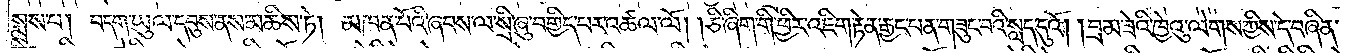སྨྲས་པ། བདག་ཡུལ་དབུས་ནས་མཆིས་ཏེ། མཁན་པོའི་ཞབས་ལ་སྲི་ཞུ་བགྱིད་པར་འཚལ་ལོ། །ཅི་ཞིག་གི་ཕྱིར་འཇིག་རྟེན་རྒྱང་པན་གཟུང་བའི་སླད་དུའོ། །བྲམ་ཟེའི་ཁྱེའུ་ལེགས་ཀྱིས་དེ་བཞིན་
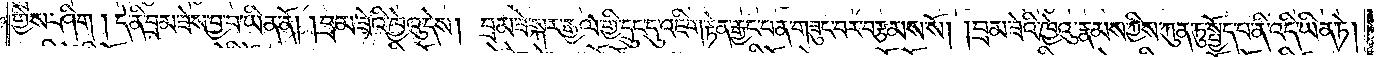གྱིས་ཤིག། དེ་ནི་བྲམ་ཟེས་བྱ་བ་ཡིན་ནོ། །བྲམ་ཟེའི་ཁྱེའུ་དེས། བྲམ་ཟེ་སྐར་རྒྱལ་གྱི་དྲུང་དུ་འཇིག་རྟེན་རྒྱང་པན་གཟུང་བར་བརྩམས་སོ། །བྲམ་ཟེའི་ཁྱེའུ་རྣམས་ཀྱིས་ཀུན་ཏུ་སྤྱོད་པ་ནི་འདི་ཡིན་ཏེ།
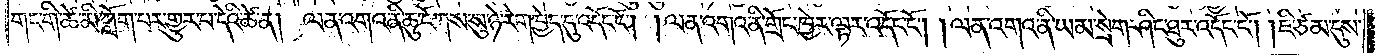གང་གི་ཚེ་མི་ཀློག་པར་གྱུར་པ་དེའི་ཚེ་ན། ལན་འགའ་ནི་ཆུ་ངོགས་སུ་ཉེ་རེག་བྱེད་དུ་འདོང་ངོ༌། །ལན་འགའ་ནི་གྲོང་ཁྱེར་ལྟར་འདོང་ངོ༌། །ལན་འགའ་ནི་ཡམ་སྲེག་ཤིང་ཐུར་འདོང་ངོ༌། །ཇི་ཙམ་དུས་
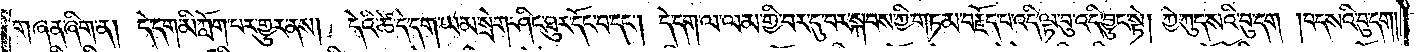གཞན་ཞིག་ན། དེ་དག་མི་ཀློག་པར་གྱུར་ནས། དེའི་ཚེ་དེ་དག་ཡམ་སྲེག་ཤིང་ཐུར་དོང་བ་དང༌། དེ་དག་ལ་ལམ་གྱི་བར་དུ་བར་སྐབས་ཀྱི་གཏམ་བརྗོད་པ་འདི་ལྟ་བུ་འདི་བྱུང་སྟེ། ཀྱེ་ཀུད་སའི་བུ་དག །བད་སའི་བུ་དག་
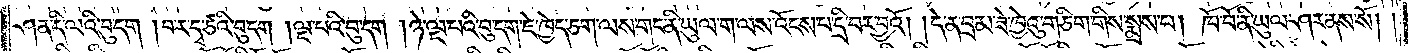ཤན་དི་ལའི་བུ་དག །བར་དྭ་ཙའི་བུ་དག །ལྔ་པའི་བུ་དག །ཉེ་ལྔ་པའི་བུ་དག་ཇེ་ཁྱེད་ཅག་ལས་གང་ནི་ཡུལ་ག་ལས་འོངས་པ་དྲི་བར་བྱའོ། །དེ་ན་བྲམ་ཟེ་ཁྱེའུ་གཅིག་གིས་སྨྲས་པ། ཁོ་བོ་ནི་ཡུལ་ཤར་ནས་སོ། །
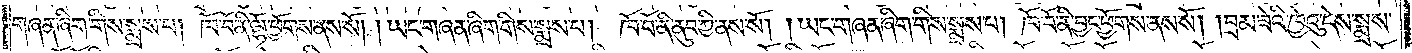གཞན་ཞིག་གིས་སྨྲས་པ། ཁོ་བོ་ནི་ལྷོ་ཕྱོགས་ནས་སོ། །ཡང་གཞན་ཞིག་གིས་སྨྲས་པ། ཁོ་བོ་ནི་ནུབ་ཀྱི་ནས་སོ། །ཡང་གཞན་ཞིག་གིས་སྨྲས་པ། ཁོ་བོ་ནི་བྱང་ཕྱོགས་ནས་སོ། །བྲམ་ཟེའི་ཁྱེའུ་དེས་སྨྲས་
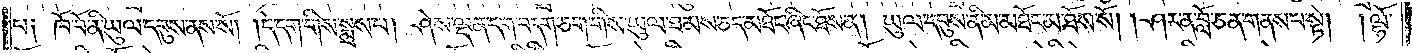པ༏ ཁོ་བོ་ནི་ཡུལ་དབུས་ནས་སོ། །དེ་དག་གིས་སྨྲས་པ། ཤེས་ལྡན་དག་བདག་ཅག་གིས་ཡུལ་ཐམས་ཅད་མཐོང་ཞིང་ཐོས་ན། ཡུལ་དབུས་ནི་མ་མཐོང་མ་ཐོས་སོ། །ཤར་ན་བློ་ཅན་གནས་པ་སྟེ། །ལྷོ་
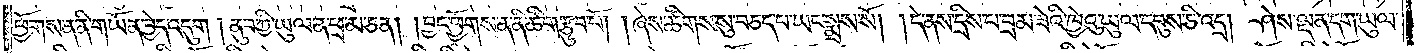ཕྱོགས་ན་ནི་གཡོན་བྱེད་འདུག། ནུབ་ཀྱི་ཡུལ་ན་ཕྲ་མ་ཅན། །བྱང་ཕྱོགས་ན་ནི་ཚིག་རྩུབ་པོ། །ཞེས་ཚིགས་སུ་བཅད་པ་ཡང་སྨྲས་སོ། །དེ་ནས་དྲིས་པ་བྲམ་ཟེའི་ཁྱེའུ་ཡུལ་དབུས་ཅི་འདྲ། ཤེས་ལྡན་དག་ཡུལ་
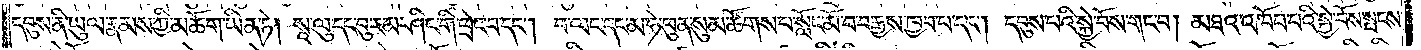དབུས་ནི་ཡུལ་རྣམས་ཀྱི་མཆོག་ཡིན་ཏེ། སཱ་ལུ་དང་བུ་རམ་ཤིང་གི་ཕྲེང་བ་དང༌། བ་ལང་དང་མ་ཧེ་ཕུན་སུམ་ཚོགས་པ་སློང་མོ་བ་བརྒྱས་ཁྱབ་པ་དང༌། དབུས་པའི་སྐྱེ་བོས་གང་བ། མཐའ་འཁོབ་པའི་སྐྱེ་བོས་སྤངས་
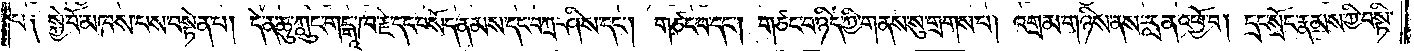པ༏ སྐྱེ་བོ་མཁས་པས་བསྟེན་པ། དེ་ན་ཆུ་ཀླུང་གངྒཱ་ཁ་རྗེ་དང་བསོད་ནམས་དང་བཀྲ་ཤིས་དང༌། གཙང་བ་དང༌། གཙང་བ་ཉིད་ཀྱི་གནས་སུ་གྲགས་པ། འགྲམ་གཉིས་ནས་རླན་འཕྱོ་བ། དྲང་སྲོང་རྣམས་ཀྱི་བསྟི་
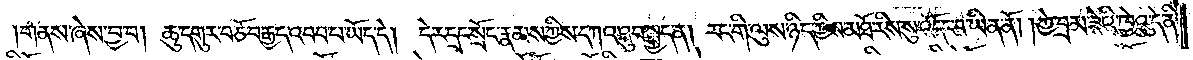གནས་ཞེས་བྱ་བ། ཆུ་དགུར་བཅོ་བརྒྱད་འབབ་པ་ཡོད་དེ། དེར་དྲང་སྲོང་རྣམས་ཀྱིས་དཀའ་ཐུབ་སྤྱད་ན། རང་གི་ལུས་ཉིད་ཀྱིས་མཐོ་རིས་སུ་འདོང་བ་ཡིན་ནོ། ། ཀྱེ་བྲམ་ཟེའི་ཁྱེའུ་དེ་ནི་
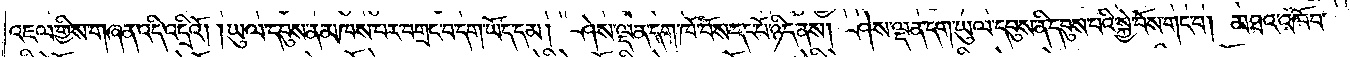འཇལ་གྱིས་གཞན་འདི་འདྲིའོ། །ཡུལ་དབུས་ན་མཁས་པར་བགྲང་བ་དག་ཡོད་དམ། ཤེས་ལྡན་དག་ཁོ་བོས་དང་པོ་ཉིད་ནས། ཤེས་ལྡན་དག་ཡུལ་དབུས་ནི་དབུས་བའི་སྐྱེ་བོས་གང་བ། མཐའ་འཁོབ་
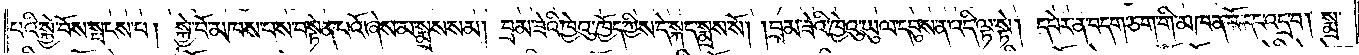པའི་སྐྱེ་བོས་སྤངས་པ། སྐྱེ་བོ་མཁས་པས་བསྟེན་པའོ་ཞེས་མ་སྨྲས་སམ། བྲམ་ཟེའི་ཁྱེའུ་ཁྱོད་ཀྱིས་དེ་སྐད་སྨྲས་སོ། །བྲམ་ཟེའི་ཁྱེའུ་ཡུལ་དབུས་ན་འདི་ལྟ་སྟེ། དཔེར་ན་བདག་ཅག་གི་མཁན་པོ་དང་འདྲ་བ། སྨྲ་
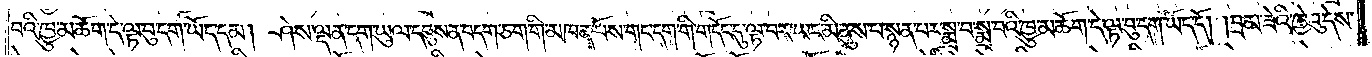བའི་ཁྱུ་མཆོག་དེ་ལྟ་བུ་དག་ཡོད་དམ། ཤེས་ལྡན་དག་ཡུལ་དབུས་ན་བདག་ཅག་གི་མཁན་པོས་གང་དག་གི་གདོང་དུ་ལྟ་བར་ཡང་མི་ནུས་པ་སྙན་པར་སྨྲ་བ་སྨྲ་བའི་ཁྱུ་མཆོག་དེ་ལྟ་བུ་དག་ཡོད་དོ། །བྲམ་ཟེའི་ཁྱེའུ་དེས་
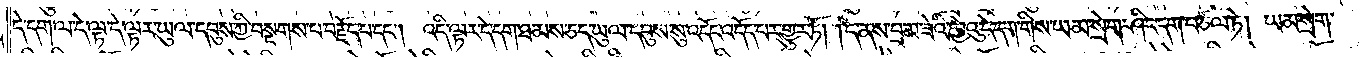དེ་དག་ལ་དེ་ལྟ་དེ་ལྟར་ཡུལ་དབུས་ཀྱི་བསྔགས་པ་བརྗོད་པ་དང༌། འདི་ལྟར་དེ་དག་ཐམས་ཅད་ཡུལ་དབུས་སུ་འདོང་འདོད་པར་གྱུར་ཏོ། །དེ་ནས་བྲམ་ཟེའི་ཁྱེའུ་དེ་དག་གིས་ཡམ་སྲེག་ཤིང་དག་བཙལ་ཏེ། ཡམ་སྲེག་
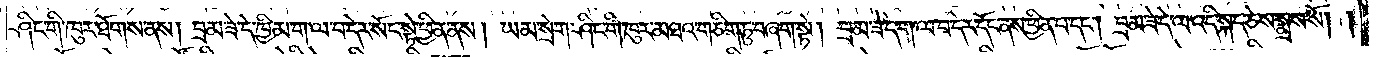ཤིང་གི་ཁུར་ཐོགས་ནས། བྲམ་ཟེ་དེ་ཁྱིམ་ག་ལ་བ་དེར་སོང་སྟེ་ཕྱིན་ནས། ཡམ་སྲེག་ཤིང་གི་ཁུར་མཐའ་གཅིག་ཏུ་བཞག་སྟེ། བྲམ་ཟེ་དེ་ག་ལ་བ་དེར་དོང་ནས་ཕྱིན་པ་དང༌། བྲམ་ཟེ་དེ་ལ་འདི་སྐད་ཅེས་སྨྲས་སོ། །
